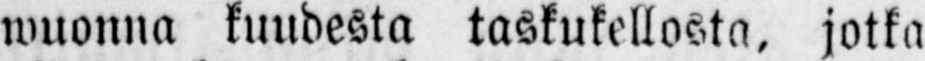wuonna kuudesta taskukellosta, jotka
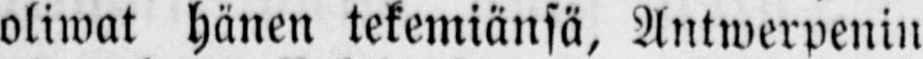oliwat hänen tekemiänsä, Antwerpenin
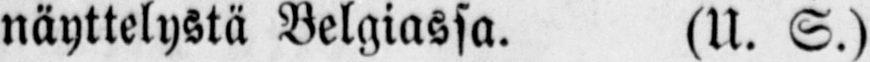näyttelystä Belgiassa. (U. S.)
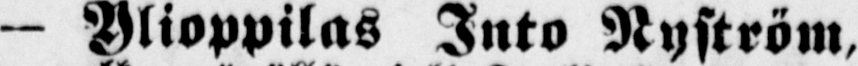— Yioppilas Into Nyström,
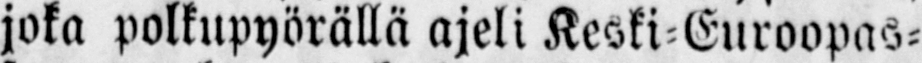joka polkupyörällä ajeli Keski-Euroopas-
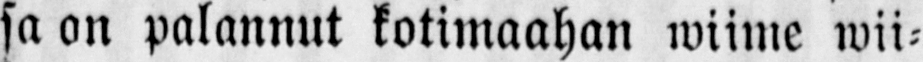sa on palannut kotimaahan wiime wii-
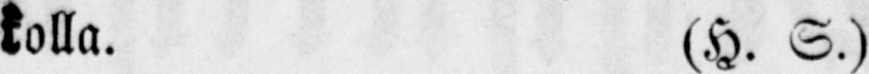kolla. (H. S.)
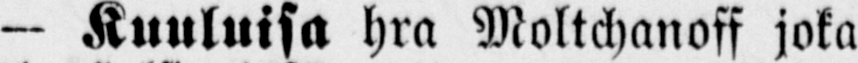— Kuuluisa hra Moltchanoff joka
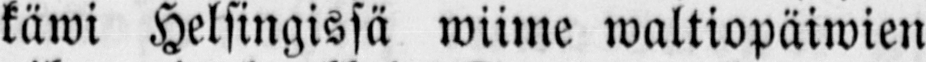käwi Helsingissä wiime waltiopäiwien
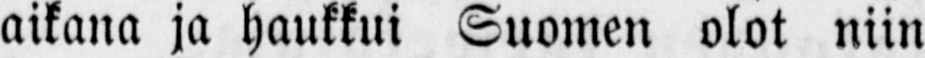aikana ja haukkui Suomen olot niin
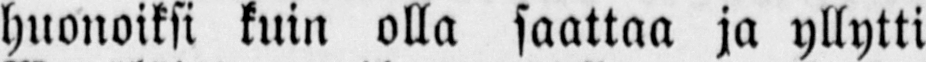huonoiksi kuin olla saattaa ja yllytti
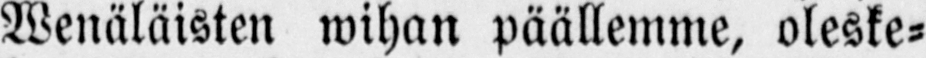Wenäläisten wihan päällemme, oleske-
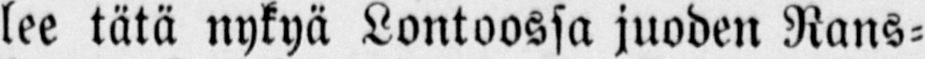lee tätä nykyä Lontoossa juoden Rans-
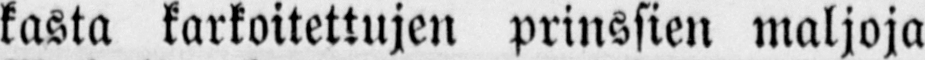kasta kartoitettujen prinssien maljoja
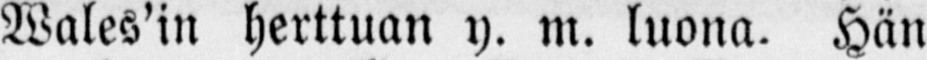Wales'in herttuan y. m. luona. Hän
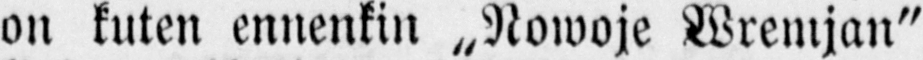on kuten ennenkin „Nowoje Wremjan"
